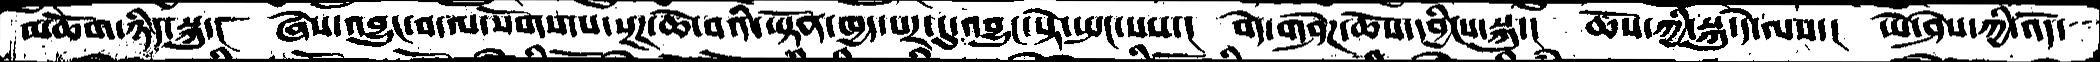མཆོག་ཉིད་སྐུ་།  ཞེས་འབྱུང་བ་ལསོགས་པ་སྔཌ་ཆེ་བའི་ཡྟོན་ཁྱད་པར་དུ་འབྱུང་སྟེ་སྤང་པས་།  བདེ་གཤེཌ་ཆོས་དབྱིངས་སྐུ་།  ཆོས་ཀྱི་སྐུ་དེ་ལས་།  ཡེ་ཤེས་ཀྱི་འོད་
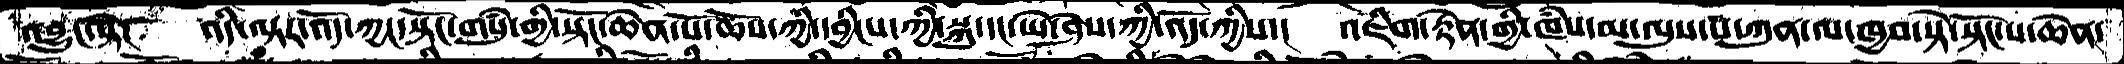འབྱུང་སྟེ་།  འདི་ལྟར་འོད་ཀྱང་སྟོང་གསུཾ་གྱི་སྟོང་ཆེན་པོ་ཆོས་ཀྱི་དབྱིངས་ཀྱི་སྐུ་དང་ཡེ་ཤེས་ཀྱི་འོད་ཀྱིས་།  འཇིག་རྟེན་གྱི་ཁཾས་མ་ལུས་པ་ཀུན་ལ་ཁྱབ་སྟེ་སྟོང་པ་ཆེན་
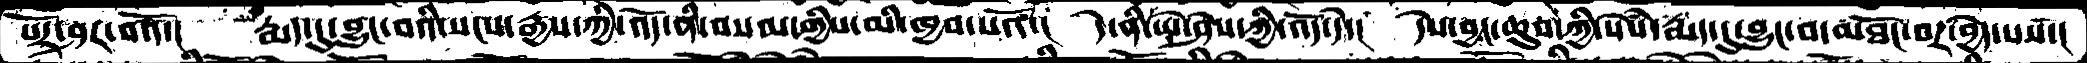པོར་ཤར་བའོ་།  རྨད་དུ་བྱུང་བའི་སངས་རྒྱས་ཀྱི་འོད་ནི་བསམ་གྱིས་མི་ཁྱབ་པའོ་།  དེ་ནི་ཡེ་ཤེས་ཀྱི་འོད་དེ་།  དེས་བྱང་ཆུབ་སེཾས་རྨད་དུ་བྱུང་བ་མཐོང་བར་བྱེད་པས་།
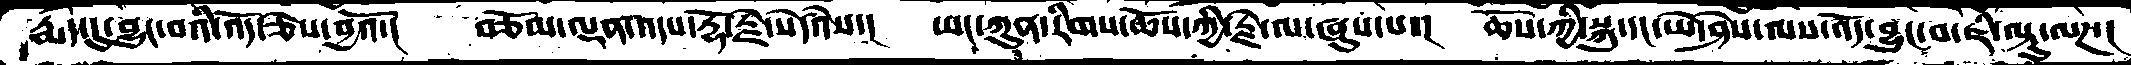རྨད་དུ་བྱུང་བའི་འོད་ཅེས་བྱའོ་།  བཅོམ་ལྡན་འདས་རྡོ་རྗེ་སེདཾའས་།  ཡང་ཀུན་རིགས་ཆོས་ཀྱི་རྗེ་ལ་ཞུས་པ་།  ཆོས་ཀྱི་སྐུ་དང་ཡེ་ཤེས་ལས་འོད་བྱུང་བ་ཇི་ལྟུ་ལཌ་།
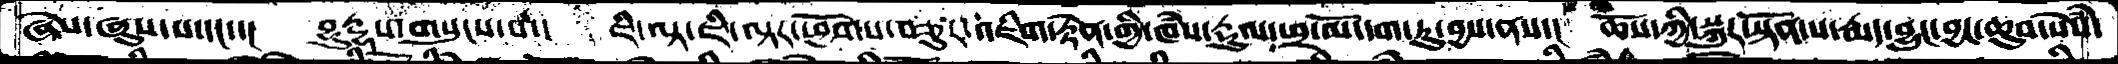ཞེས་ཞུས་པ་དང་་།  བྷུཏྡྷས་གསུངས་པ་།  ཇི་ལྟ་ཇི་ལྟར་ཕྱོགས་བཅུར་འཇིག་རྟེན་གྱི་ཁཾས་རྡུལ་ཕྲ་མོ་དག་ཏུ་བྱས་ནས་།  ཆོས་ཀྱི་སྐུར་སྟོན་པ་རྨད་བྱུང་བྱང་ཆུབ་སེཾས་
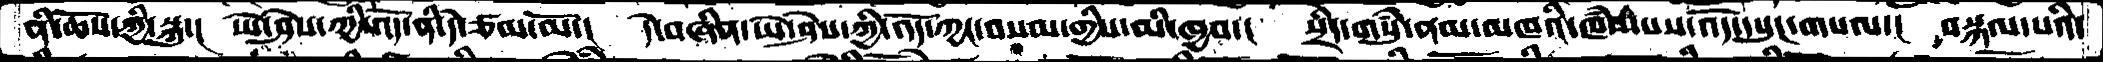ནི་ཆོས་ཀྱི་སྐུ་།  ཡེ་ཤེས་ཀྱི་འོད་ནི་དེ་ཙམ་མོ་།  དེ་བཞིན་ཡེ་ཤེས་ཀྱི་འོད་ཀྱང་བསམ་གྱིས་མི་ཁྱབ་།  སྲིད་གསུཾ་ནམ་མཁའི་ཁཾས་པས་འདོད་དཔུང་གསལ་།  བསྐལ་པའི་
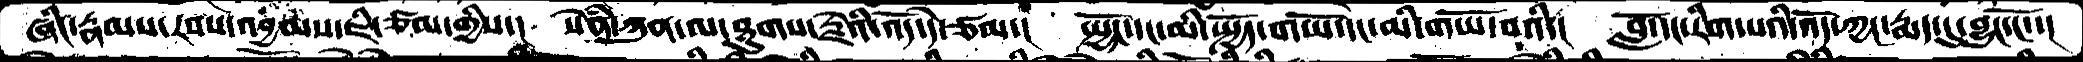ཞིང་རྣམས་རབས་འབྱམས་ཇི་ཙམ་གྱིས་།  སེནཾ་ཀུན་ལ་ཐུགས་རྗེའི་འོད་དེ་ཙམ་།  སྤྱོད་དང་མི་སྤྱོད་གཡོ་དང་མི་གཡོ་བའི་།  བློ་དང་རིག་པའི་འོད་ཀྱང་རྨད་དུ་བྱུང་ངོ་་།
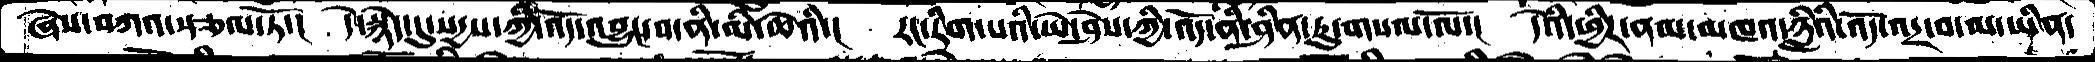ཞེས་བཀའ་སྩལ་ཏོ་།  དེ་སྙེད་དུ་སདྱས་ཀྱི་འོད་འབྱུང་བ་ནི་མི་ཆེའི་།  རང་རིག་པའི་ཡེ་ཤེས་ཀྱི་འདོ་ནི་ཤིན་ཏུ་གསལ་ལོ་།  དེའི་ཕྱིར་ནམ་མཁའ་ཉླིའི་འོད་འདྲ་བ་མ་ཡིན་
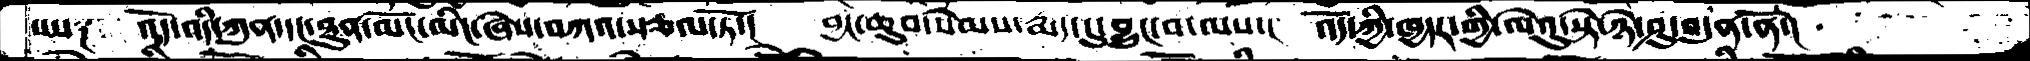པས༑  འོད་འདི་ཀུན་དང་ཐུན་མོང་མིང་ཞེས་བཀའ་སྩལ་ཏོ་།  བྱང་ཆུབ་སེམས་རྨད་དུ་བྱུང་བ་ལས་།  འོད་ཀྱི་ཁྱདར་གྱི་ལེའུ་སྟེ་ཉེ་ཤུ་བདུན་ནོ་།
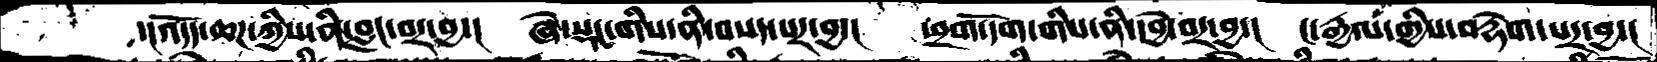་།འདོད་ཆཌ་ཀྱིས་ནི་བླང་བར་བྱ་།  ཞེ་སྡང་གིས་ནི་བསད་པར་བྱ་།  ཕྲག་དོག་གིས་ནི་དབྱེ་བར་བྱ་།  ང་རྒྱལ་གྱིས་ནི་བརྡེག་པར་བྱ་།
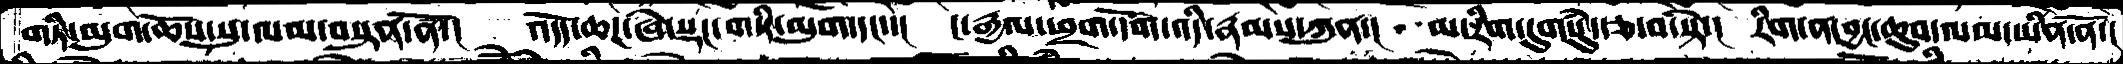གཏི་མུག་ཆོས་སུ་ལམ་བསྟན་ནོ་།  འདོད་ཆཌ་ཞེ་སྡང་གཏི་མུག་དང་།  ང་རྒྱལ་ཕྲག་དོག་འདི་རྣམས་ཀུན་།  མ་རིག་དུགསུཾ་རྩ་བ་སྟེ་།  རིག་ན་བྱང་ཆུབ་ལམ་ཡིན་ནོ་།
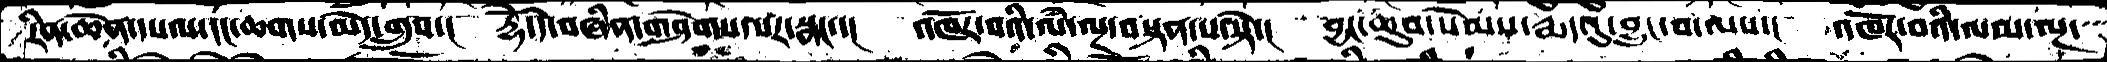རིན་ཆེན་དཔལ་དང་ཆགས་མེད་གྲུབ་།  རྡོེ་དེ་བཞིན་གཤེགས་པར་སྣང་།  འཁོར་བའི་ལཾ་ལྔ་བསྟན་པ་སྟེ་།  བྱང་ཆུབ་སེམས་རྨད་དུ་བྱུང་བ་ལས་།  འཁོར་བའི་ལམ་ལྔ་
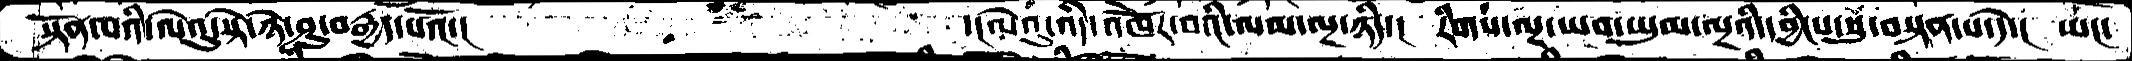སྟོན་པའི་ལེའུ་སྟེ་ཉེ་ཤུ་བརྒྱད་པའོ་།                 ་།ལེའུ་འདི་འཁོར་བའི་ལམ་ལྔ་ཉིད་།  རིགས་ལྔ་ཡབ་ཡུམ་ལྔའི་དབྱིངས་སུ་བསྟན་པ་དེ་།  ཡང་
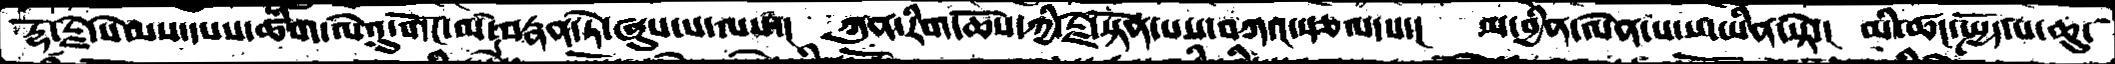རྡོ་རྗེ་སེམས་དཔས་ཚིག་ལེའུ་གོང་མ་བརྣན་ཏེ་ཞུས་པ་ལས་།  ཀུན་རིག་ཆོས་ཀྱི་རྗེ་སྟོན་པས་བཀའ་སྩལ་པ་།  མ་བྱིན་ལེན་པ་ས་ཡིན་སྟེ་།  མི་ཚང་སྤྱོད་པ་ཆུ་
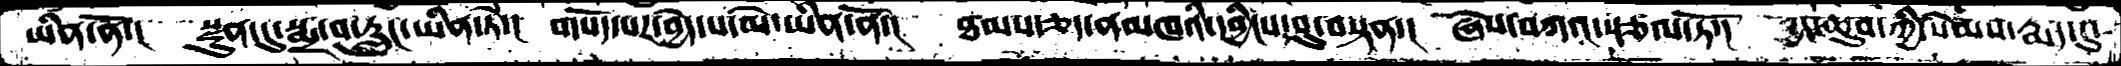ཡིན་ནོ་།  སྫུན་དུ་སྨྲ་བ་རླུང་ཡིན་ཏེ་།  གསོད་པར་བྱེད་པ་མེ་ཡིན་ནོ་།  ཐམས་ཅད་ནམཁའི་དབྱིངས་སུ་བསྟན་།  ཞེས་བཀའ་་སྩལ་ཏོ་།  བྱང་ཆུབ་ཀྱི་སེམས་རྨད་དུ་
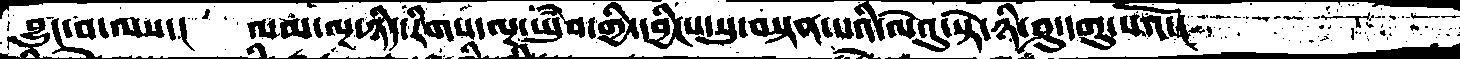བྱུང་བ་ལས་།  ལམ་ལྔ་ཉིད་རིགས་ལྔ་ཡུཾབ་གྱི་དབྱིངས་སུ་བསྟན་པའི་ལེའུ་སྟེ་ཉི་ཤུ་དགུ་པའོ་།
